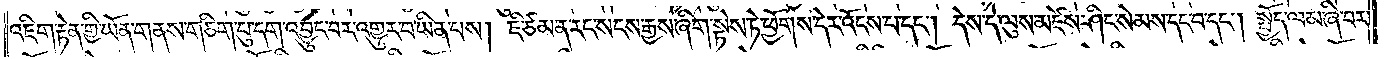འཇིག་རྟེན་གྱི་ཡོན་གནས་གཅིག་པུ་དག་འབྱུང་བར་འགྱུར་བ་ཡིན་པས། ཇི་ཙམ་ན་རང་སངས་རྒྱས་ཞིག་སྟེས་ཏེ་ཕྱོགས་དེར་འོངས་པ་དང༌། དེས་དེ་ལུས་མཛེས་ཤིང་སེམས་དང་བ་དང༌། སྤྱོད་ལམ་ཞི་བར་
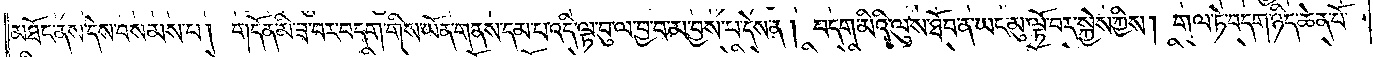མཐོང་ནས་དེས་བསམས་པ། གདོན་མི་ཟ་བར་བདག་གིས་ཡོན་གནས་དམ་པ་འདི་ལྟ་བུ་ལ་བྱ་བ་མ་བྱས་པ་དེས་ན། བདག་མིའི་ལུས་ཐོབ་ན་ཡང་མུ་ལྟོ་བར་སྐྱེས་ཀྱིས། གལ་ཏེ་བདག་ཉིད་ཆེན་པོ་
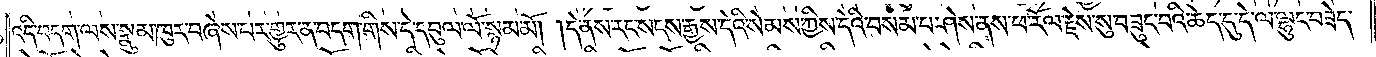འདི་བདག་ལས་སྣུམ་ཁུར་བཞེས་པར་གྱུར་ན་བདག་གིས་དེ་དབུལ་ལོ་སྙམ་མོ། །དེ་ནས་རང་སངས་རྒྱས་དེའི་སེམས་ཀྱིས་དེའི་བསམ་པ་ཤེས་ནས་ཕ་རོལ་རྗེས་སུ་བཟུང་བའི་ཆེད་དུ་དེ་ལ་ལྷུང་བཟེད་
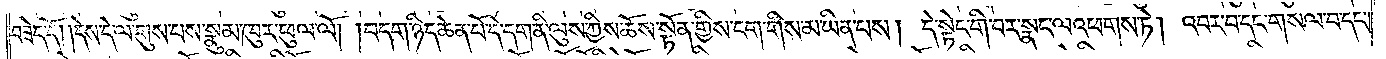བཟེད་དོ། །དེས་དེ་ལ་གུས་པས་སྣུམ་ཁུར་ཕུལ་ལོ། །བདག་ཉིད་ཆེན་པོ་དེ་དག་ནི་ལུས་ཀྱིས་ཆོས་སྟོན་གྱིས་ངག་གིས་མ་ཡིན་པས། དེ་སྟེང་གི་བར་སྣང་ལ་འཕགས་ཏེ། འབར་བ་དང་གསལ་བ་དང་
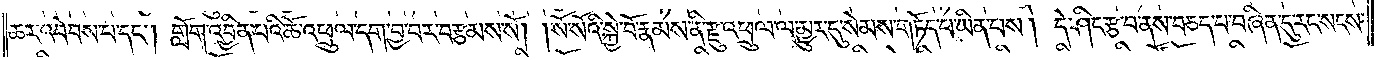ཆར་འབེབས་པ་དང༌། གློག་འབྱིན་པའི་ཆོས་འཕྲུལ་དག་བྱ་བར་བརྩམས་སོ། །སོ་སོའི་སྐྱེ་བོ་རྣམས་ནི་རྫུ་འཕྲུལ་ལ་མྱུར་དུ་སེམས་གཏོད་པ་ཡིན་པས། དེ་ཤིང་རྩ་བ་ནས་བཅད་པ་བཞིན་དུ་རང་སངས་
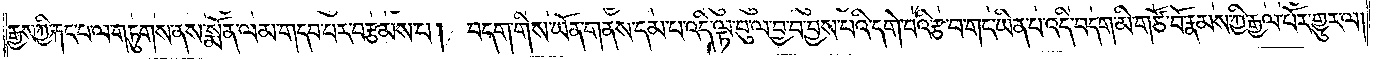རྒྱས་ཀྱི་རྐང་པ་ལ་གཏུགས་ནས་སྨོན་ལམ་གདབ་པར་བརྩམས་པ། བདག་གིས་ཡོན་གནས་དམ་པ་འདི་ལྟ་བུ་ལ་བྱ་བ་བྱས་པའི་དགེ་བའི་རྩ་བ་གང་ཡིན་པ་འདི་བདག་མི་གཙོ་བོ་རྣམས་ཀྱི་རྒྱལ་པོར་གྱུར་ལ།
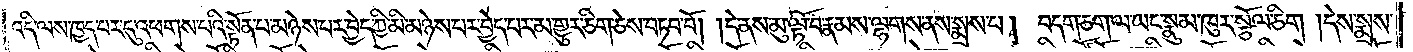འདི་ལས་ཁྱད་པར་དུ་འཕགས་པའི་སྟོན་པ་མཉེས་པར་བྱེད་ཀྱི་མི་མཉེས་པར་བྱེད་པར་མ་གྱུར་ཅིག་ཅེས་བཏབ་བོ། །དེ་ནས་མུ་ལྟོ་བ་རྣམས་ལྷགས་ནས་སྨྲས་པ། བདག་ཅག་ལ་ཡང་སྣུམ་ཁུར་སྩོལ་ཅིག །དེས་སྨྲས་
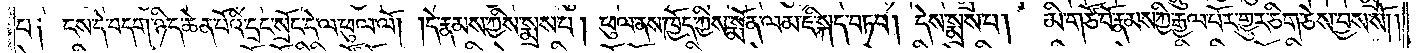པ། ངས་དེ་བདག་ཉིད་ཆེན་པོའི་དྲང་སྲོང་དེ་ལ་ཕུལ་ལོ། །དེ་རྣམས་ཀྱིས་སྨྲས་པ། ཕུལ་ནས་ཁྱོད་ཀྱིས་སྨོན་ལམ་ཇི་སྐད་བཏབ། དེས་སྨྲས་པ། མི་གཙོ་བོ་རྣམས་ཀྱི་རྒྱལ་པོར་གྱུར་ཅིག་ཅེས་བྱས་སོ། །
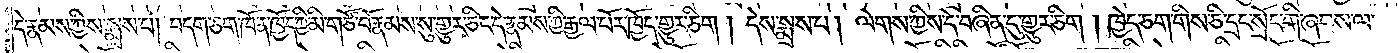དེ་རྣམས་ཀྱིས་སྨྲས་པ། བདག་ཅག་ཁོ་ན་ཁྱོད་ཀྱི་མི་གཙོ་བོ་རྣམས་སུ་གྱུར་ཅིང་དེ་རྣམས་ཀྱི་རྒྱལ་པོར་ཁྱོད་གྱུར་ཅིག །དེས་སྨྲས་པ། ལེགས་ཀྱིས་དེ་བཞིན་དུ་གྱུར་ཅིག །ཁྱེད་ཅག་གིས་ཅི་དྲང་སྲོང་གི་ཞབས་ལ་
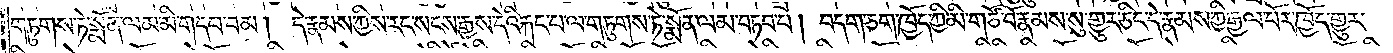གཏུགས་ཏེ་སྨོན་ལམ་མི་གདབ་བམ། དེ་རྣམས་ཀྱིས་རང་སངས་རྒྱས་དེའི་རྐང་པ་ལ་གཏུགས་ཏེ་སྨོན་ལམ་བཏབ་པ། བདག་ཅག་ཁྱོད་ཀྱི་མི་གཙོ་བོ་རྣམས་སུ་གྱུར་ཅིང་དེ་རྣམས་ཀྱི་རྒྱལ་པོར་ཁྱོད་གྱུར་
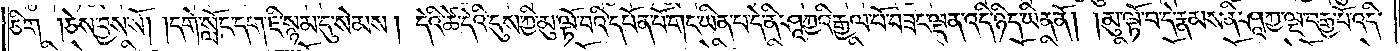ཅིག །ཅེས་བྱས་སོ། །དགེ་སློང་དག་ཇི་སྙམ་དུ་སེམས། དེའི་ཚེ་དེའི་དུས་ཀྱི་མུ་ལྟོ་བའི་དཔོན་པོ་གང་ཡིན་པ་དེ་ནི་ཤཱཀྱའི་རྒྱལ་པོ་བཟང་ལྡན་འདི་ཉིད་ཡིན་ནོ། །མུ་ལྟོ་བ་དེ་རྣམས་ནི་ཤཱཀྱ་ལྔ་བརྒྱ་པོ་འདི་
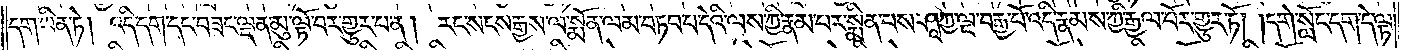དག་ཡིན་ཏེ། འདི་དག་དང་བཟང་ལྡན་མུ་ལྟོ་བར་གྱུར་པ་ན། རང་སངས་རྒྱས་ལ་སྨོན་ལམ་བཏབ་པ་དེའི་ལས་ཀྱི་རྣམ་པར་སྨིན་པས་ཤཱཀྱ་ལྔ་བརྒྱ་པོ་འདི་རྣམས་ཀྱི་རྒྱལ་པོར་གྱུར་ཏོ། །དགེ་སློང་དག་དེ་ལྟ་
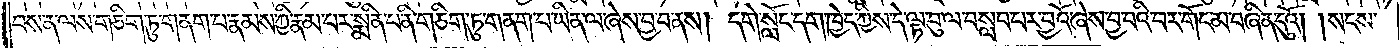བས་ན་ལས་གཅིག་ཏུ་གནག་པ་རྣམས་ཀྱི་རྣ་པར་སྨིན་པ་ནི་གཅིག་ཏུ་གནག་པ་ཡིན་ལ་ཞེས་བྱ་བ་ནས། དགེ་སློང་དག་ཁྱེད་ཀྱིས་དེ་ལྟ་བུ་ལ་བསླབ་པར་བྱའོ་ཞེས་བྱ་བའི་བར་གོང་མ་བཞིན་དུའོ། །སངས་
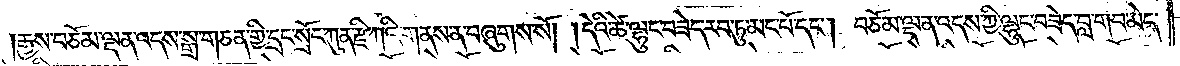རྒྱས་བཅོམ་ལྡན་འདས་སྒྲ་གཅན་གྱི་དྲང་སྲོང་ཀུན་རྫི་ཀའི་གནས་ན་བཞུགས་སོ། །དེའི་ཚེ་ལྷུང་བཟེད་རབ་ཏུ་མང་པོ་དང༌། བཅོམ་ལྡན་འདས་ཀྱིས་ལྷུང་བཟེད་བླ་གབ་མེད་
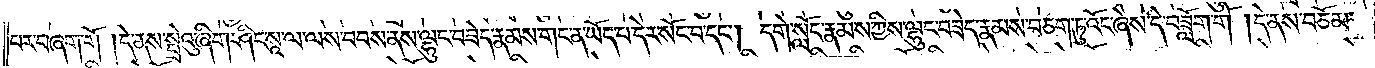པར་བཞག་གོ །དེ་ནས་སྤྲེའུ་ཞིག་ཤིང་སཱ་ལ་ལས་བབས་ནས་ལྷུང་བཟེད་རྣམས་གང་ན་ཡོད་པ་དེར་སོང་བ་དང༌། དགེ་སློང་རྣམས་ཀྱིས་ལྷུང་བཟེད་རྣམས་བཅག་ཏུ་འོང་ཞེས་དེ་བཟློག་གོ །དེ་ནས་བཅོམ་
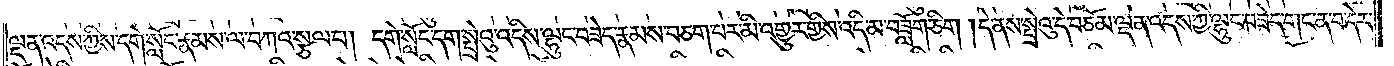ལྡན་འདས་ཀྱིས་དགེ་སློང་རྣམས་ལ་བཀའ་སྩལ་པ། དགེ་སློང་དག་སྤྲེའུ་འདིས་ལྷུང་བཟེད་རྣམས་བཅག་པར་མི་འགྱུར་གྱིས་འདི་མ་བཟློག་ཅིག །དེ་ནས་སྤྲེའུ་དེ་བཅོམ་ལྡན་འདས་ཀྱི་ལྷུང་བཟེད་གང་ན་བ་དེར་
